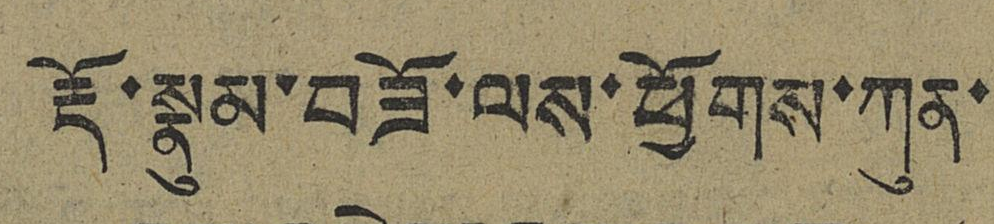རྡོ་སྣུམ་བཟོ་ལས་ཕྱོགས་ཀུན་
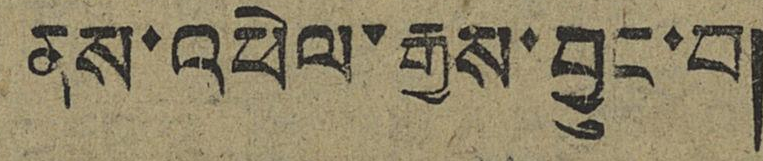ནས་འཕེལ་རྒྱས་བྱུང་བ།
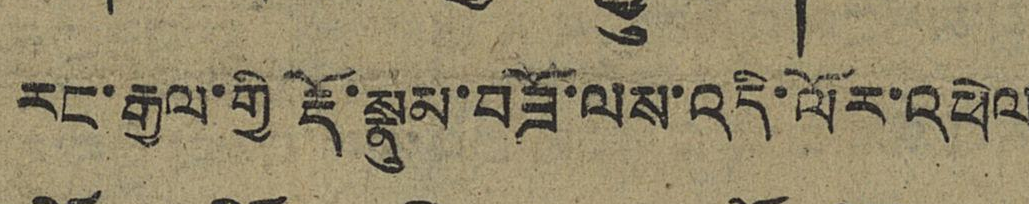རང་རྒྱལ་གྱི་རྡོ་སྣུམ་བཟོ་ལས་འདི་ལོར་འཕེལ
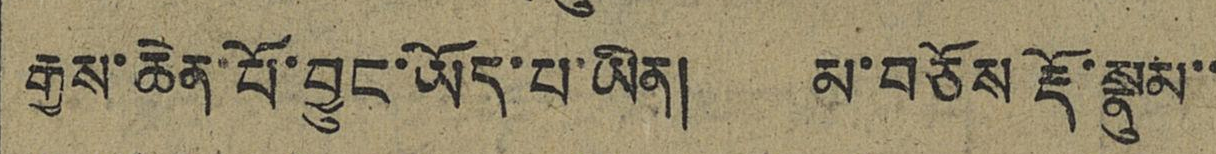རྒྱས་ཆེན་པོ་བྱུང་ཡོད་པ་ཡིན། མ་བཅོས རྡོ་སྣུམ་་
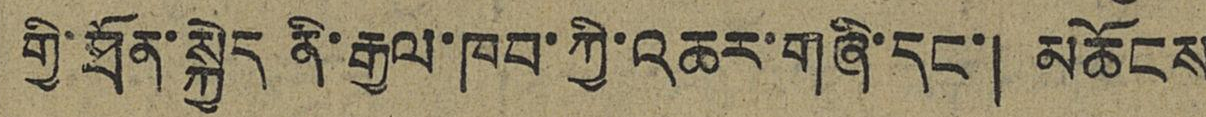གྱི་ཐོན་སྐྱེད ནི་རྒྱལ་ཁབ་ཀྱི་འཆར་གཞི་དང་། མཆོངས
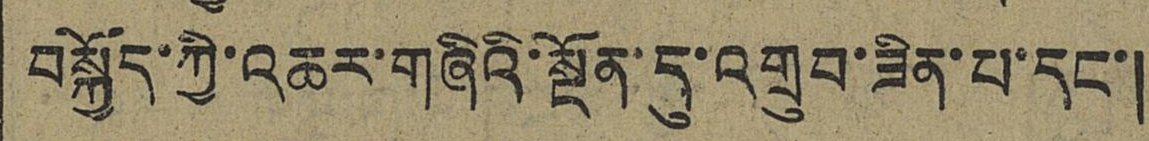བསྐྱོད་ཀྱི་འཆར་གཞིའི་སྔོན་དུ་འགྲུབ་ཟིན་པ་དང་།
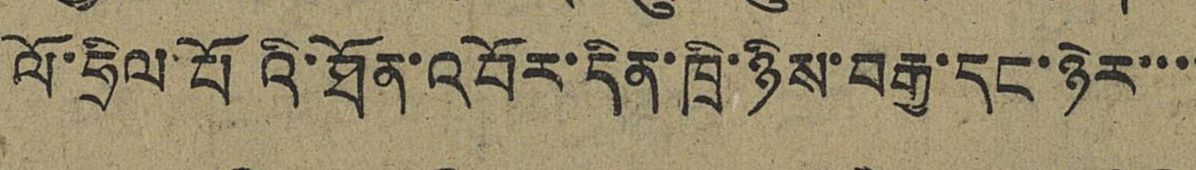ལོ་ཧྲིལ་པོའི་ཐོན་འབོར་དིན་ཁྲི་ཉིས་བརྒྱ་དང་ཉེར་་་་
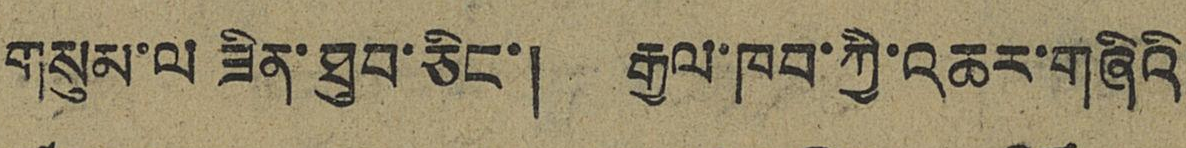གསུམ་ལ ཟིན་ཐུབ་ཅིང་། རྒྱལ་ཁབ་ཀྱི་འཆར་གཞིའི་
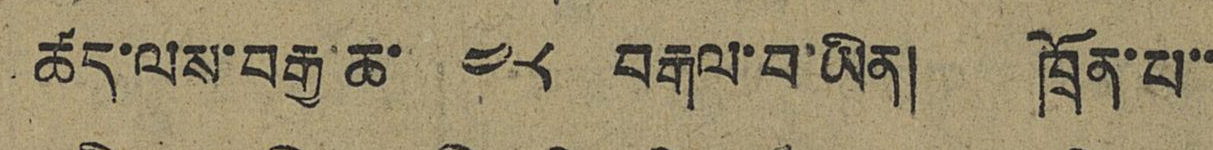ཚད་ལས་བརྒྱ་ཆ་ ༤༨ བརྒལ་བ་ཡིན། ཁྲོན་པ་་
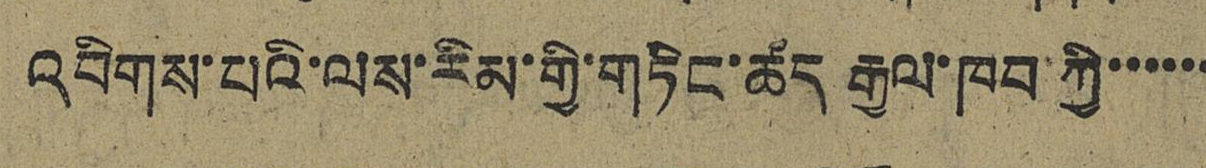འབིགས་པའི་ལས་རིམ་གྱི་གཏིང་ཚད རྒྱལ་ཁ་ཀྱི་་་་་་
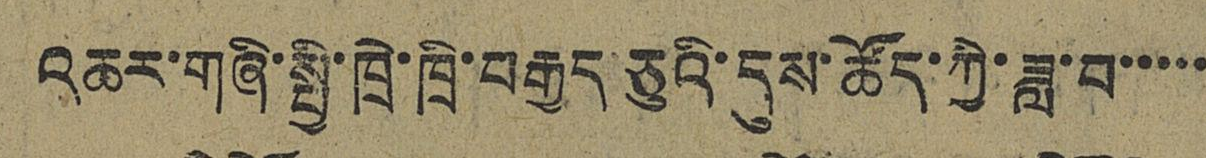འཆར་གཞི་སྤྱི་ཁྲེ་ཁྲི་བརྒྱད་ཅུའི་དུས་ཚོད་ཀྱི་ཟླ་བ་་་་་
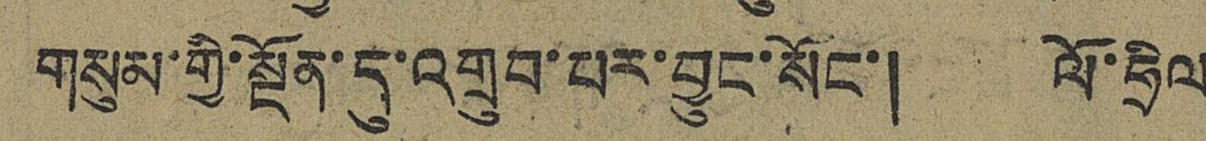གསུམ་གྱི་སྔོན་དུ་འགྲུབ་པར་བྱུང་སོང་། ལོ་ཧྲིལ་
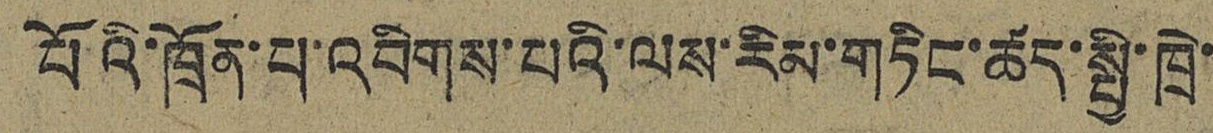པོའི་ཁྲོན་པ་འབིགས་པའི་ལས་རིམ་གཏིང་ཚད་སྤྱི་ཁྲེ་
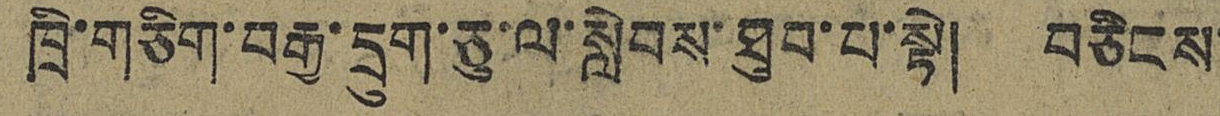ཁྲི་གཅིག་བརྒྱ་དྲུག་ཅུ་ལ་སླེབས་ཐུབ་པ་སྟེ། བཅིངས་
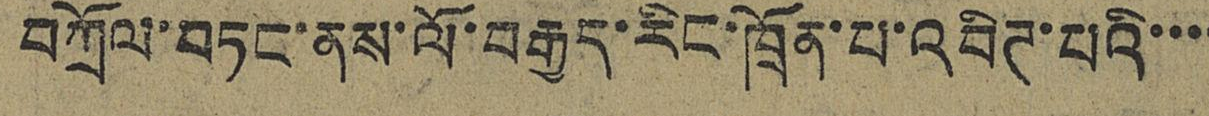བཀྲོལ་བཏང་ནས་ལོ་བརྒྱད་རིང་ཁྲོན་པ་འབིཊ་པའི་་་་
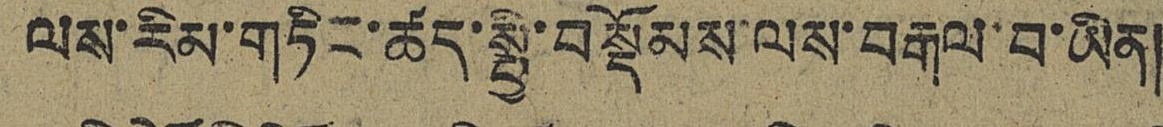ལས་རིམ་གཏིང་ཚད་སྤྱི་བསྡོམས་ལས་བརྒལ་བ་ཡིན།
